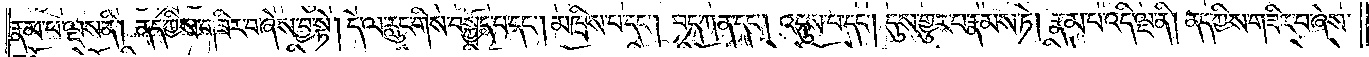རྣམ་པ་ལྔས་ནི། ནད་ཀྱིས་གཟིར་བ་ཞེས་བྱ་སྟེ། དེ་ལ་རླུང་གིས་བསྐྱོད་པ་དང༌། མཁྲིས་པ་དང༌། བད་ཀན་དང༌། འདུས་པ་དང༌། དུས་གྱུར་པ་རྣམས་ཏེ། རྣམ་པ་འདི་ལྔ་ནི། ནད་ཀྱིས་གཟིར་བ་ཞེས་
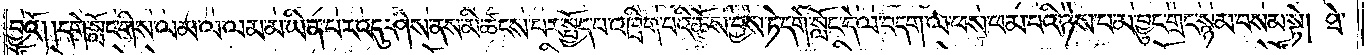བྱའོ། །དགེ་སློང་གིས་ལམ་ལ་ལམ་མ་ཡིན་པར་འདུ་ཤེས་ནས་མི་ཚངས་པར་སྤྱོད་པ་འཁྲིག་པའི་ཆོས་བྱས་ཏེ་དགེ་སློང་དེ་ལ་བདག་ལ་ཕས་ཕམ་པའི་ཉེས་པ་མ་བྱུང་གྲང་སྙམ་བསམ་སྟེ། ཐེ་
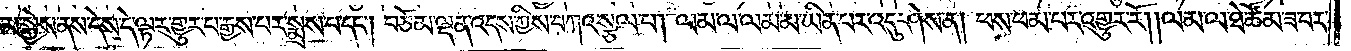ཚོམ་སྐྱེས་ནས་དེས་དེ་ལྟར་གྱུར་པ་རྒྱས་པར་སྨྲས་པ་དང༌། བཅོམ་ལྡན་འདས་ཀྱིས་བཀའ་སྩལ་པ། ལམ་ལ་ལམ་མ་ཡིན་པར་འདུ་ཤེས་ན། ཕས་ཕམ་པར་འགྱུར་རོ། །ལམ་ལ་ཐེ་ཚོམ་ཟ་བར་
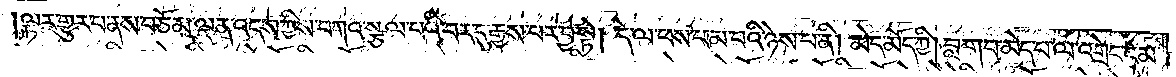ལྟར་གྱུར་པ་ནས་བཅོམ་ལྡན་འདས་ཀྱིས་བཀའ་སྩལ་པའི་བར་དུ་རྒྱས་པར་བྱ་སྟེ། དེ་ལ་ཕས་ཕམ་པའི་ཉེས་པ་ནི། མེད་མོད་ཀྱི། བླ་གབ་མེད་པ་ལ་འགྲེང་ངམ་
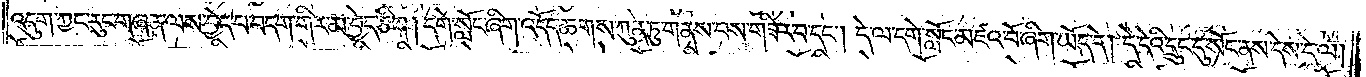འདུག་ཀྱང་རུང་གཞན་ལས་བྱེད་པ་བདག་གིར་མ་བྱེད་ཅིག །དགེ་སློང་ཞིག་འདོད་ཆགས་ཀུན་ཏུ་གནས་པས་གཟིར་བ་དང༌། དེ་ལ་དགེ་སློང་མཛའ་བོ་ཞིག་ཡོད་དེ། དེ་དེའི་དྲུང་དུ་སོང་ནས་དེས་དེ་ལ།
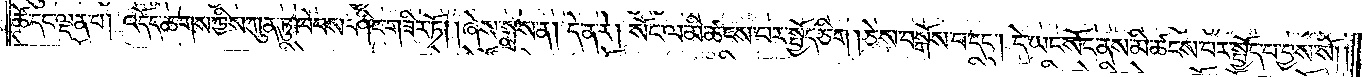ཚེ་དང་ལྡན་པ། འདོད་ཆགས་ཀྱིས་ཀུན་ཏུ་ཁེབས་ཤིང་གཟིར་ཏོ། །ཞེས་སྨྲས་ན། དེ་ན་རེ། སོང་ལ་མི་ཚངས་པར་སྤྱོད་ཅིག །ཅེས་བསྒོས་པ་དང༌། དེ་ཡང་སོང་ནས་མི་ཚངས་པར་སྤྱོད་པ་བྱས་སོ། །
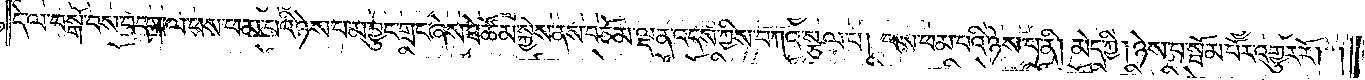དེ་ལ་བསྒོ་བས་བདག་ལ་ཕས་ཕམ་པའི་ཉེས་པ་མ་བྱུང་གྲང་ཞེས་ཐེ་ཚོམ་སྐྱེས་ནས་བཅོམ་ལྡན་འདས་ཀྱིས་བཀའ་སྩལ་པ། ཕས་ཕམ་པའི་ཉེས་པ་ནི། མེད་ཀྱི། ཉེས་པ་སྦོམ་པོར་འགྱུར་རོ། །
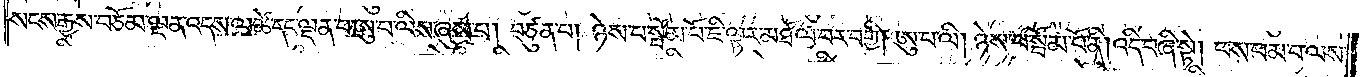སངས་རྒྱས་བཅོམ་ལྡན་འདས་ལ་ཚེ་དང་ལྡན་པ་ཨུ་པ་ལིས་ཞུས་པ། བཙུན་པ། ཉེས་པ་སྦོམ་པོ་ཇི་ལྟར་མཐོལ་བར་བགྱི། ཨུ་པ་ལི། ཉེས་པ་སྦོམ་པོ་ནི། འདི་བཞི་སྟེ། ཕས་ཕམ་པ་ལས་
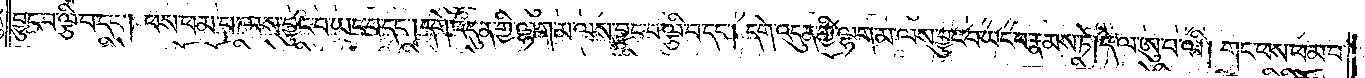བྱུང་བ་ལྕི་བ་དང༌། ཕས་ཕམ་པ་ལས་བྱུང་བ་ཡང་བ་དང༌། དགེ་འདུན་གྱི་ལྷག་མ་ལས་བྱུང་བ་ལྕི་བ་དང༌། དགེ་འདུན་གྱི་ལྷག་མ་ལས་བྱུང་བ་ཡང་བ་རྣམས་ཏེ། དེ་ལ་ཨུ་པ་ལི། གང་ཕས་ཕམ་པ་
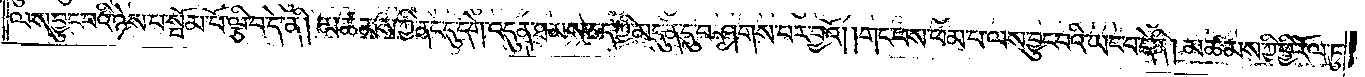ལས་བྱུང་བའི་ཉེས་པ་སྦོམ་པོ་ལྕི་བ་དེ་ནི། མཚམས་ཀྱི་ནང་དུ་དགེ་འདུན་ཐམས་ཅད་ཀྱི་མདུན་དུ་བཤགས་པར་བྱའོ། །གང་ཕས་ཕམ་པ་ལས་བྱུང་བའི་ཡང་བ་དེ་ནི། མཚམས་ཀྱི་ཕྱི་རོལ་ཏུ་
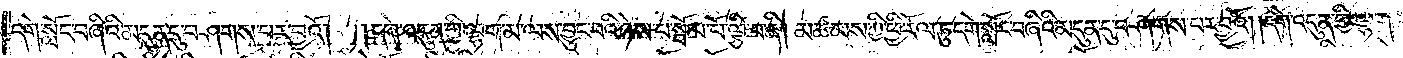དགེ་སློང་བཞིའི་མདུན་དུ་བཤགས་པར་བྱའོ། །དགེ་འདུན་གྱི་ལྷག་མ་ལས་བྱུང་བའི་ཉེས་པ་སྦོམ་པོ་ལྕི་བ་ནི། མཚམས་ཀྱི་ཕྱི་རོལ་ཏུ་དགེ་སློང་བཞིའི་མདུན་དུ་བཤགས་པར་བྱའོ། །དགེ་འདུན་གྱི་ལྷག་
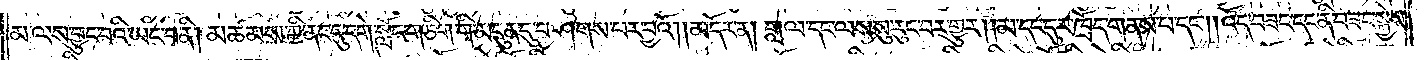མ་ལས་བྱུང་བའི་ཡང་བ་ནི། མཚམས་ཀྱི་ནང་དུ་དགེ་སློང་གཅིག་གི་མདུན་དུ་བཤགས་པར་བྱའོ། །མདོར་ན། གླལ་དང་ལས་སུ་རུང་བར་གྱུར། །མ་དང་དུར་ཁྲོད་གནས་པ་དང༌། །འོད་བཟང་དང་ནི་བཟང་སྐྱེས་
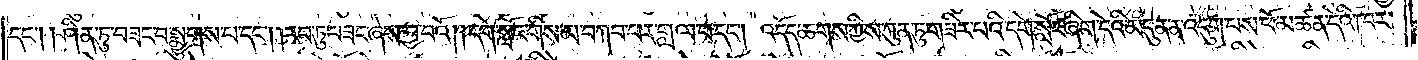དང༌། །ཤིན་ཏུ་བཟང་བ་སྨྱུགས་པ་དང༌། །རབ་ཏུ་བཟང་ཞེས་བྱ་བའོ། །དགེ་སློང་གིས་མ་བཀབ་པར་གླལ་བ་དང༌། འདོད་ཆགས་ཀྱིས་ཀུན་ཏུ་གཟིར་བའི་དགེ་སློང་ཞིག་དེའི་མདུན་ན་འདུག་པས་ཕོ་མཚན་དེའི་ཁར་
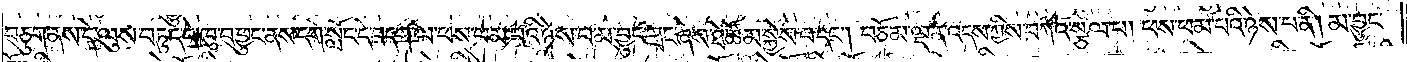བཅུག་ནས་དེ་ལུས་བཏུད་དེ་ཁུ་བ་ཕྱུང་ནས་དགེ་སློང་དེ་བདག་ལ་ཕས་ཕམ་པའི་ཉེས་པ་མ་བྱུང་གྲང་ཞེས་ཐེ་ཚོམ་སྐྱེས་པ་དང༌། བཅོམ་ལྡན་འདས་ཀྱིས་བཀའ་སྩལ་པ། ཕས་ཕམ་པའི་ཉེས་པ་ནི། མ་བྱུང་
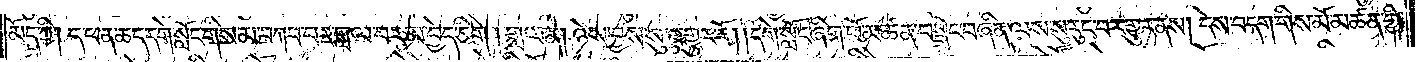མོད་ཀྱི། ད་ཕན་ཆད་དགེ་སློང་གིས་མ་བཀབ་པར་གླལ་བར་མ་བྱེད་ཅིག །གླལ་ན། ཉེས་བྱས་སུ་འགྱུར་རོ། །དགེ་སློང་ཞིག་ཕོ་མཚན་བསྒྲེང་བཞིན་ལས་སུ་རུང་བར་གྱུར་ནས། དེས་བདག་གིས་མོ་མཚན་གྱི་
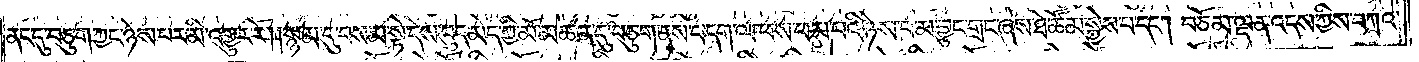ནང་དུ་བཅུག་ཀྱང་ཉེས་པར་མི་འགྱུར་རོ། །སྙམ་དུ་བསམ་སྟེ་དེས་བུད་མེད་ཀྱི་མོ་མཚན་དུ་བཅུག་ནས་བདག་ལ་ཕས་ཕམ་པའི་ཉེས་པ་མ་བྱུང་གྲང་ཞེས་ཐེ་ཚོམ་སྐྱེས་པ་དང༌། བཅོམ་ལྡན་འདས་ཀྱིས་བཀའ་
